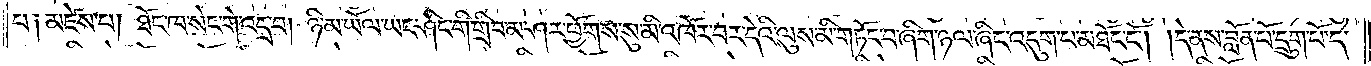པ༑ མཛེས་པ། ཐོང་ཁ་སེང་གེ་འདྲ་བ། ཉི་མ་ཡོལ་ཡང་ཤིང་གི་གྲིབ་མ་ཤར་ཕྱོགས་སུ་མི་འཁོར་བར་དེའི་ལུས་མི་གཏོང་བ་ཞིག་ཉལ་ཞིང་འདུག་པ་མཐོང་ངོ༌། །དེ་ནས་བློན་པོ་དྲུག་པོ་དེ་
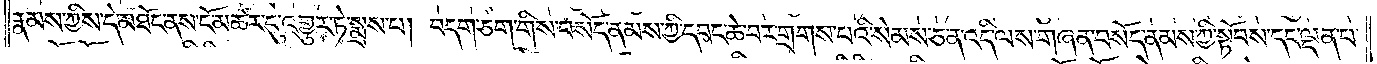རྣམས་ཀྱིས་དེ་མཐོང་ནས་ངོ་མཚར་དུ་འགྱུར་ཏེ་སྨྲས་པ། བདག་ཅག་གིས་བསོད་ནམས་ཀྱི་དབང་ཆེ་བར་གྲགས་པའི་སེམས་ཅན་འདི་ལས་གཞན་བསོད་ནམས་ཀྱི་སྟོབས་དང་ལྡན་པ་
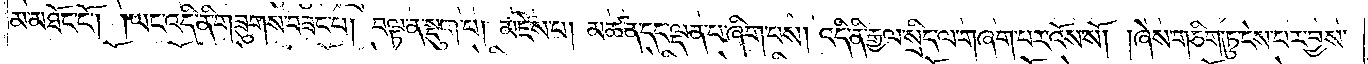མ་མཐོང་ངོ༌། །ཡང་འདི་ནི་གཟུགས་བཟང་པ། བལྟ་ན་སྡུག་པ། མཛེས་པ། མཚན་དང་ལྡན་པ་ཞིག་པས། འདི་ནི་རྒྱལ་སྲིད་ལ་གཞག་པར་འོས་སོ། །ཞེས་གཅིག་ཏུ་ངེས་པར་བྱས་
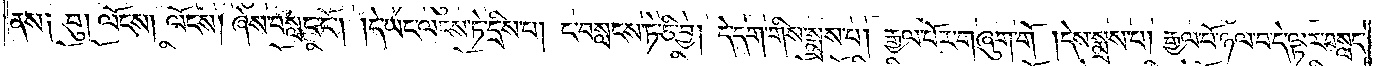ནས༑ བུ། ལོངས། ལོངས། ཞེས་བསླང་ངོ༌། །དེ་ཡང་ལངས་ཏེ་དྲིས་པ། ང་བསླངས་ཏེ་ཅི་བྱ། དེ་དག་གིས་སྨྲས་པ། རྒྱལ་པོར་གཞུག་གོ །དེས་སྨྲས་པ། རྒྱལ་པོ་ཉལ་བ་དེ་ལྟར་བསླང་
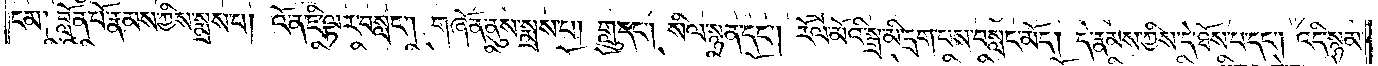ངམ། བློན་པོ་རྣམས་ཀྱིས་སྨྲས་པ། འོ་ན་ཇི་ལྟར་བསླང༌། གཞོན་ནུས་སྨྲས་པ། གླུ་དང༌། སིལ་སྙན་དང༌། རོལ་མོའི་སྒྲ་མི་དྲག་པས་བསླང་མོད། དེ་རྣམས་ཀྱིས་དེ་ཐོས་པ་དང༌། འདི་སྙམ་
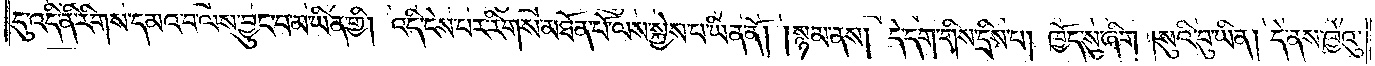དུ་འདི་ནི་རིགས་དམའ་བ་ལས་བྱུང་བ་མ་ཡིན་གྱི། འདི་ངེས་པར་རིགས་མཐོན་པོ་ལས་སྐྱེས་པ་ཡིན་ནོ། །སྙམ་ནས། དེ་དག་གིས་དྲིས་པ། ཁྱོད་སུ་ཞིག །སུའི་བུ་ཡིན། དེ་ནས་ཁྱེའུ་
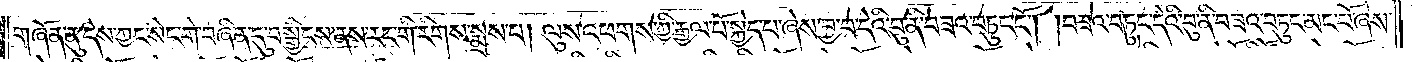གཞོན་ནུ་དེས་ཀྱང་སེང་གེ་བཞིན་དུ་བསྒྱིངས་ནས་རང་གི་རིགས་སྨྲས་པ། ལུས་འཕགས་ཀྱི་རྒྱལ་པོ་སྐྱེད་པ་ཞེས་བྱ་བ་དེའི་བུ་ནི་བཟའ་བཏུང་ངོ༌། །བཟའ་བཏུང་དེའི་བུ་ནི་བཟའ་བཏུང་མང་པོ་ཞེས་
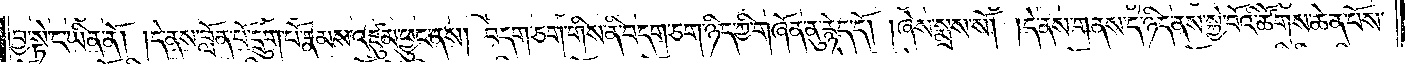བྱ་སྟེ་ང་ཡིན་ནོ། །དེ་ནས་བློན་པོ་དྲུག་པོ་རྣམས་འཛུམ་ཕྱུང་ནས། བདག་ཅག་གིས་ནི་བདག་ཅག་ཉིད་ཀྱི་གཞོན་ནུ་རྙེད་དོ། །ཞེས་སྨྲས་སོ། །དེ་ནས་གནས་དེ་ཉིད་ནས་སྐྱེ་བོའི་ཚོགས་ཆེན་པོས་
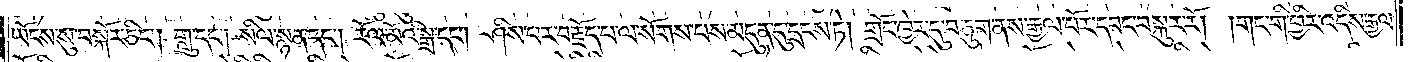ཡོངས་སུ་བསྐོར་ཅིང༌། གླུ་དང༌། སིལ་སྙན་དང༌། རོལ་མོའི་སྒྲ་དང༌། ཤིས་པར་བརྗོད་པ་ལ་སོགས་པས་མདུན་དུ་དྲངས་ཏེ། གྲོང་ཁྱེར་དུ་བཅུག་ནས་རྒྱལ་པོར་དབང་བསྐུར་རོ། །གང་གི་ཕྱིར་འདིས་རྒྱལ་
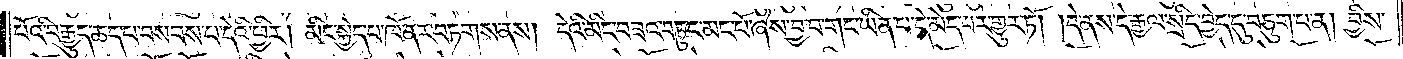པོའི་བརྒྱུད་ཆད་པ་བསབས་པ་དེའི་ཕྱིར། མིང་སྐྱེད་པ་ཁོ་ནར་བཏགས་ནས། དེའི་མིང་བཟའ་བཏུང་མང་པོ་ཞེས་བྱ་བ་གང་ཡིན་པ་དེ་མེད་པར་གྱུར་ཏོ། །དེ་ནས་དེ་རྒྱལ་སྲིད་བྱེད་དུ་བཅུག་པ་ན། བྱིས་
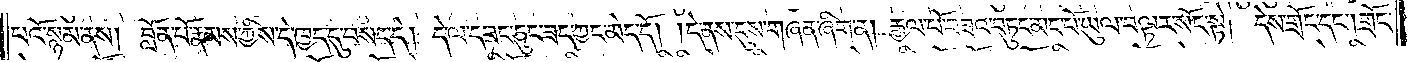པའོ་སྙམ་ནས། བློན་པོ་རྣམས་ཀྱིས་དེ་ཁྱད་དུ་བསད་དེ། དེ་ལ་དབང་ཅུང་ཟད་ཀྱང་མེད་དོ། །དེ་ནས་དུས་གཞན་ཞིག་ན། རྒྱལ་པོ་བཟའ་བཏུང་མང་པོ་ཡུལ་བལྟར་སོང་སྟེ། དེས་གྲོང་དང༌། གྲོང་
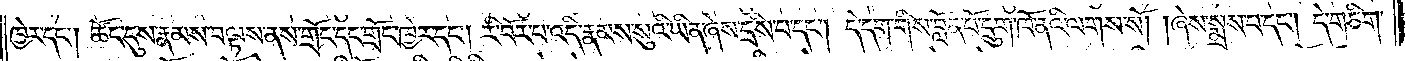ཁྱེར་དང༌། ཚོང་དུས་རྣམས་བལྟས་ནས་གྲོང་དང་གྲོང་ཁྱེར་དང༌། རི་བོར་པ་འདི་རྣམས་སུའི་ཡིན་ཞེས་དྲིས་པ་དང༌། དེ་དག་གིས་བློན་པོ་དྲུག་ཁོ་ནའི་ལགས་སོ། །ཞེས་སྨྲས་པ་དང༌། དེ་གཅིག་
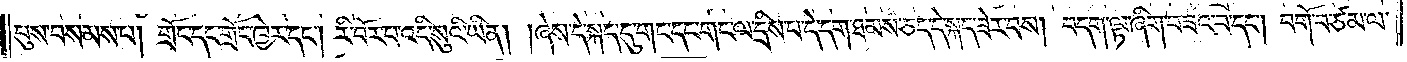པུས་བསམས་པ། གྲོང་དང་གྲོང་ཁྱེར་དང༌། རི་བོར་པ་འདི་སུའི་ཡིན། །ཞེས་དེ་སྐད་དུ་གང་དང་གང་ལ་དྲིས་པ་དེ་དག་ཐམས་ཅད་དེ་སྐད་ཟེར་བས། བདག་ལྟ་ཞིག་བཟའ་བ་དང༌། བགོ་བ་ཙམ་ལ་
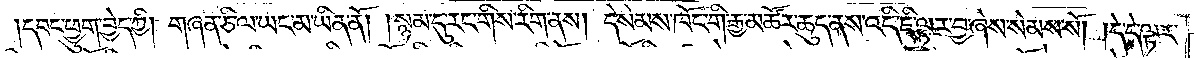དབང་ཕྱུག་བྱེད་ཀྱི། གཞན་ཅི་ལ་ཡང་མ་ཡིན་ནོ། །སྙམ་དུ་རང་གིས་རིག་ནས། དེ་སེམས་ཁོང་གི་རྒྱ་མཚོར་ཆུད་ནས་འདི་ཇི་ལྟར་བྱ་ཞེས་སེམས་སོ། །དེ་དེ་ལྟར་
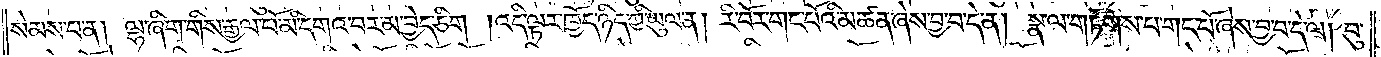སེམས་པ་ན། ལྷ་ཞིག་གིས་རྒྱལ་པོ་མི་དགའ་བར་མ་བྱེད་ཅིག །འདི་ལྟར་ཁྱོད་ཉིད་ཀྱི་ཡུལ་ན། རི་བོར་གང་པོའི་མཚན་ཞེས་བྱ་བ་དེ་ན། སྣ་ལ་གཏོགས་པ་གང་པོ་ཞེས་བྱ་བ་དེ་ལ། བུ་
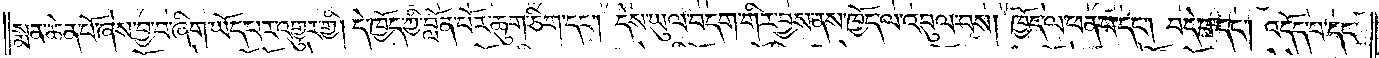སྨན་ཆེན་པོ་ཞེས་བྱ་བ་ཞིག་ཡོད་པར་འགྱུར་གྱི། དེ་ཁྱོད་ཀྱི་བློན་པོར་ཆུག་ཅིག་དང༌། དེས་ཡུལ་བདག་གིར་བྱས་ནས་ཁྱོད་ལ་འབུལ་བས། ཁྱོད་ལ་ཕན་པ་དང༌། བདེ་བ་དང༌། འདོད་པ་དང་
